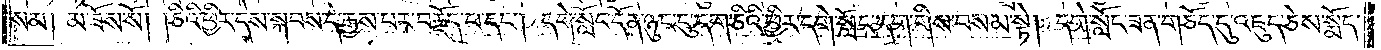སམ། མ་ཟོས་སོ། །ཅིའི་ཕྱིར་དེས་སྐབས་དེ་རྒྱས་པར་བརྗོད་པ་དང༌། དགེ་སློང་དོན་ཉུང་ངུ་དག་ཅིའི་ཕྱིར་དགེ་སློང་དག་གིས་བསམ་སྟེ། དགེ་སློང་ཟན་གཅོད་དུ་འཇུད་ཅེས་སྨོད་
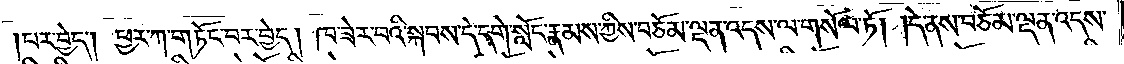བར་བྱེད། ཕྱར་ཀ་གཏོང་བར་བྱེད། ཁ་ཟེར་བའི་སྐབས་དེ་དགེ་སློང་རྣམས་ཀྱིས་བཅོམ་ལྡན་འདས་ལ་གསོལ་ཏོ། །དེ་ནས་བཅོམ་ལྡན་འདས་
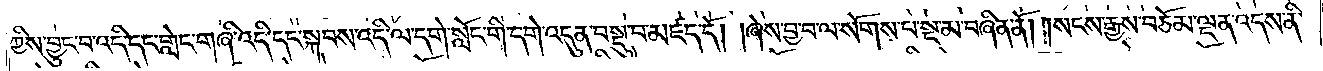ཀྱིས་བྱུང་བ་འདི་དང་གླེང་གཞི་འདི་དང་སྐབས་འདི་ལ་དགེ་སློང་གི་དགེ་འདུན་བསྡུ་བ་མཛད་དོ། །ཞེས་བྱ་བ་ལ་སོགས་པ་སྔ་མ་བཞིན་ནོ། །སངས་རྒྱས་བཅོམ་ལྡན་འདས་ནི་
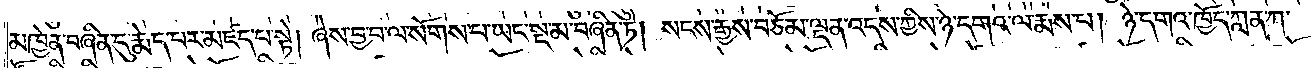མཁྱེན་བཞིན་དུ་རྨེད་པར་མཛད་པ་སྟེ། ཞེས་བྱ་བ་ལ་སོགས་པ་ཡང་སྔ་མ་བཞིན་ཏེ། སངས་རྒྱས་བཅོམ་ལྡན་འདས་ཀྱིས་ཉེ་དགའ་ལ་རྨས་པ། ཉེ་དགའ་ཁྱོད་ཀླན་ཀ་
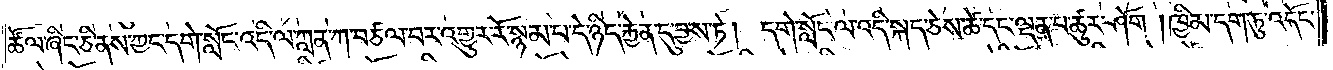ཚོལ་ཞིང་ཅི་ནས་ཀྱང་དགེ་སློང་འདི་ལ་ཀླན་ཀ་བཙལ་བར་འགྱུར་རོ་སྙམ་པ་དེ་ཉིད་རྐྱེན་དུ་བྱས་ཏེ། དགེ་སློང་ལ་འདི་སྐད་ཅེས་ཚེ་དང་ལྡན་པ་ཚུར་ཤོག །ཁྱིམ་དག་ཏུ་འདོང་
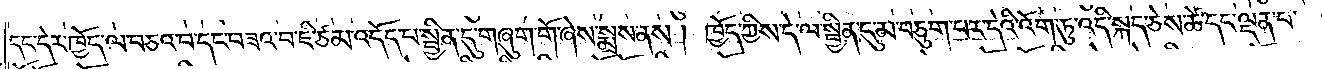དང་དེར་ཁྱོད་ལ་བཅའ་བ་དང་བཟའ་བ་ཇི་ཙམ་འདོད་པ་སྦྱིན་དུ་གཞུག་གོ་ཞེས་སྨྲས་ནས། ཁྱོད་ཀྱིས་དེ་ལ་སྦྱིན་དུ་མ་བཅུག་པར་དེའི་འོག་ཏུ་འདི་སྐད་ཅེས་ཚེ་དང་ལྡན་པ་
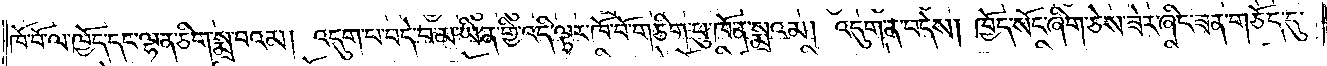ཁོ་བོ་ལ་ཁྱོད་དང་ལྷན་ཅིག་སྨྲ་བའམ། འདུག་པ་བདེ་བ་མ་ཡིན་གྱི་འདི་ལྟར་ཁོ་བོ་གཅིག་པུ་ཁོ་ན་སྨྲའམ། འདུག་ན་བདེས། ཁྱོད་སོང་ཞིག་ཅེས་ཟེར་ཞིང་ཟན་གཅོད་དུ་
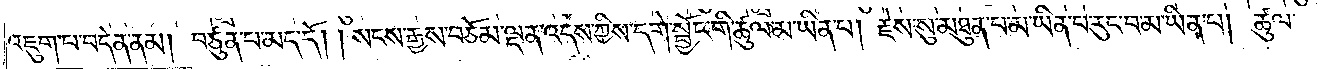འཇུག་པ་བདེན་ནམ། བཙུན་པ་མད་དོ། །སངས་རྒྱས་བཅོམ་ལྡན་འདས་ཀྱིས་དགེ་སྦྱོང་གི་ཚུལ་མ་ཡིན་པ། རྗེས་སུ་མཐུན་པ་མ་ཡིན་པ་རུང་བ་མ་ཡིན་པ། ཚུལ་
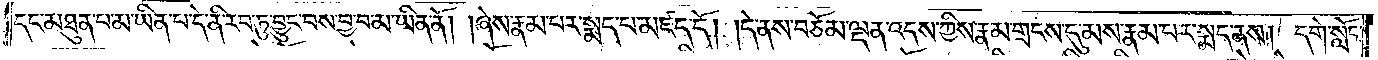དང་མཐུན་པ་མ་ཡིན་པ་དེ་ནི་རབ་ཏུ་བྱུང་བས་བྱ་བ་མ་ཡིན་ནོ། །ཞེས་རྣམ་པར་སྨད་པ་མཛད་དོ། །དེ་ནས་བཅོམ་ལྡན་འདས་ཀྱིས་རྣམ་གྲངས་དུ་མས་རྣམ་པར་སྨད་ནས། དགེ་སློང་
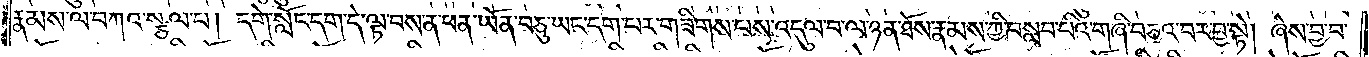རྣམས་ལ་བཀའ་སྩལ་པ། དགེ་སློང་དག་དེ་ལྟ་བས་ན་ཕན་ཡོན་བཅུ་ཡང་དག་པར་གཟིགས་པས་འདུལ་བ་ལ་ཉན་ཐོས་རྣམས་ཀྱི་བསླབ་པའི་གཞི་བཅའ་བར་བྱ་སྟེ། ཞེས་བྱ་བ་
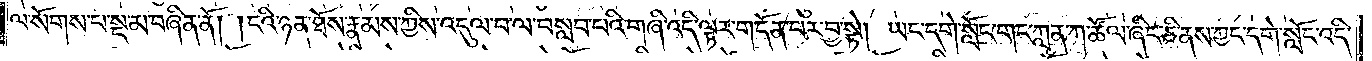ལ་སོགས་པ་སྔ་མ་བཞིན་ནོ། །ངའི་ཉན་ཐོས་རྣམས་ཀྱིས་འདུལ་བ་ལ་བསླབ་པའི་གཞི་འདི་ལྟར་གདོན་པར་བྱ་སྟེ། ཡང་དགེ་སློང་གང་ཀླན་ཀ་ཚོལ་ཞིང་ཅི་ནས་ཀྱང་དགེ་སློང་འདི་
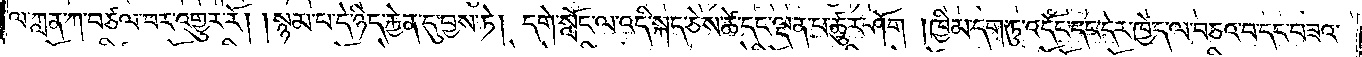ལ་ཀླན་ཀ་བཙལ་བར་འགྱུར་རོ། །སྙམ་པ་དེ་ཉིད་རྐྱེན་དུ་བྱས་ཏེ། དགེ་སློང་ལ་འདི་སྐད་ཅེས་ཚེ་དང་ལྡན་པ་ཚུར་ཤོག །ཁྱིམ་དག་ཏུ་འདོང་དང་དེར་ཁྱེད་ལ་བཅའ་བ་དང་བཟའ་
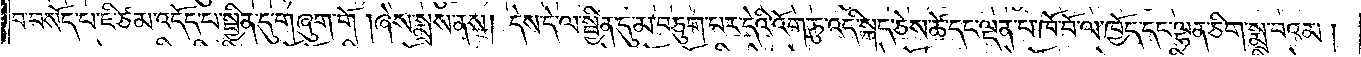བ་བསོད་པ་ཇི་ཙམ་འདོད་པ་སྦྱིན་དུ་གཞུག་གོ །ཞེས་སྨྲས་ནས། དེས་དེ་ལ་སྦྱིན་དུ་མ་བཅུག་པར་དེའི་འོག་ཏུ་འདི་སྐད་ཅེས་ཚེ་དང་ལྡན་པ་ཁོ་བོ་ལ་ཁྱོད་དང་ལྷན་ཅིག་སྨྲ་བའམ།
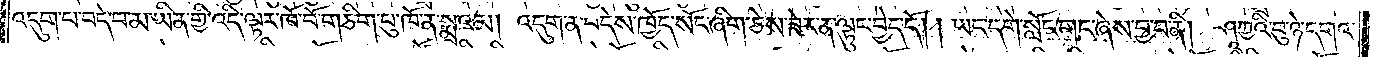འདུག་པ་བདེ་བ་མ་ཡིན་གྱི་འདི་ལྟར་ཁོ་བོ་གཅིག་པུ་ཁོ་ན་སྨྲའམ། འདུག་ན་བདེས་ཁྱོད་སོང་ཞིག་ཅེས་ཟེར་ན་ལྟུང་བྱེད་དོ། །ཡང་དགེ་སློང་གང་ཞེས་བྱ་བ་ནི། ཤཱཀྱའི་བུ་ཉེ་དགའ་
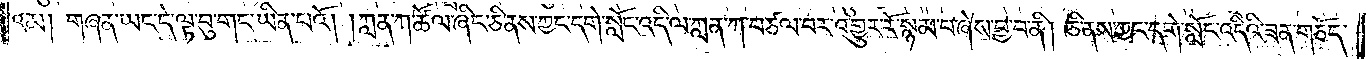འམ། གཞན་ཡང་དེ་ལྟ་བུ་གང་ཡིན་པའོ། །ཀླན་ཀ་ཚོལ་ཞིང་ཅི་ནས་ཀྱང་དགེ་སློང་འདི་ལ་ཀླན་ཀ་བཙལ་བར་འགྱུར་རོ་སྙམ་པ་ཞེས་བྱ་བ་ནི། ཅི་ནས་ཀྱང་དགེ་སློང་འདིའི་ཟན་གཅོད་
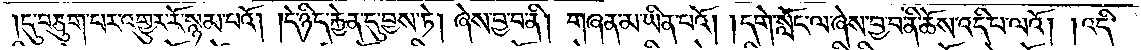དུ་བཅུག་པར་འགྱུར་རོ་སྙམ་པའོ། །དེ་ཉིད་རྐྱེན་དུ་བྱས་ཏེ། ཞེས་བྱ་བ་ནི། གཞན་མ་ཡིན་པའོ། །དགེ་སློང་ལ་ཞེས་བྱ་བ་ནི་ཆོས་འདི་པ་ལའོ། །འདི་
